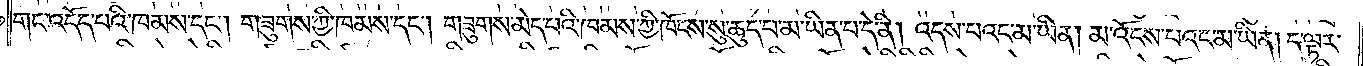གང་འདོད་པའི་ཁམས་དང༌། གཟུགས་ཀྱི་ཁམས་དང༌། གཟུགས་མེད་པའི་ཁམས་ཀྱི་ཁོངས་སུ་ཆུད་པ་མ་ཡིན་པ་དེ་ནི། འདས་པའང་མ་ཡིན། མ་འོངས་པའང་མ་ཡིན། ད་ལྟར་
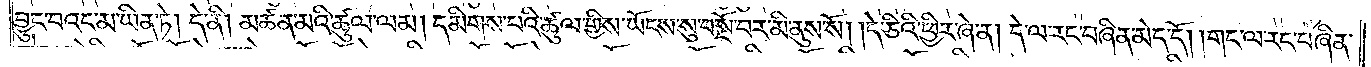བྱུང་བའང་མ་ཡིན་ཏེ། དེ་ནི། མཚན་མའི་ཚུལ་ལམ། དམིགས་པའི་ཚུལ་གྱིས་ཡོངས་སུ་བསྔོ་བར་མི་ནུས་སོ། །དེ་ཅིའི་ཕྱིར་ཞེ་ན། དེ་ལ་རང་བཞིན་མེད་དོ། །གང་ལ་རང་བཞིན་
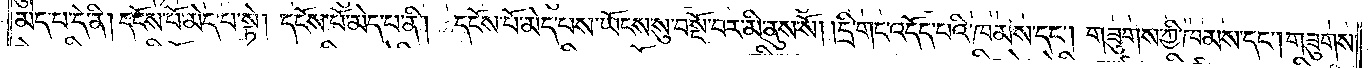མེད་པ་དེ་ནི། དངོས་པོ་མེད་པ་སྟེ། དངོས་པོ་མེད་པ་ནི། དངོས་པོ་མེད་པས་ཡོངས་སུ་བསྔོ་བར་མི་ནུས་སོ། །དྲི་གང་འདོད་པའི་ཁམས་དང༌། གཟུགས་ཀྱི་ཁམས་དང༌། གཟུགས་
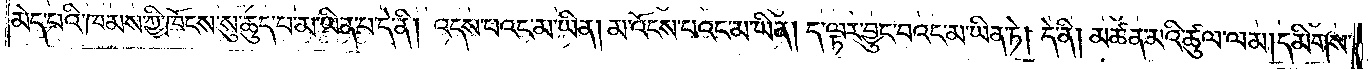མེད་པའི་ཁམས་ཀྱི་ཁོངས་སུ་ཆུད་པ་མ་ཡིན་པ་དེ་ནི། འདས་པའང་མ་ཡིན། མ་འོངས་པའང་མ་ཡིན། ད་ལྟར་བྱུང་བའང་མ་ཡིན་ཏེ། དེ་ནི། མཚན་མའི་ཚུལ་ལམ། དམིགས་
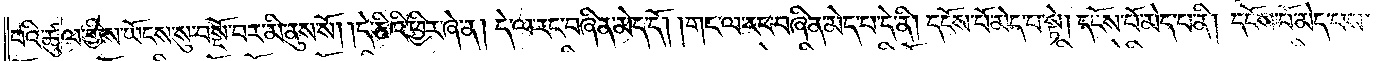པའི་ཚུལ་གྱིས་ཡོངས་སུ་བསྔོ་བར་མི་ནུས་སོ། །དེ་ཅིའི་ཕྱིར་ཞེ་ན། དེ་ལ་རང་བཞིན་མེད་དོ། །གང་ལ་རང་བཞིན་མེད་པ་དེ་ནི། དངོས་པོ་མེད་པ་སྟེ། དངོས་པོ་མེད་པ་ནི། དངོས་པོ་མེད་པས་
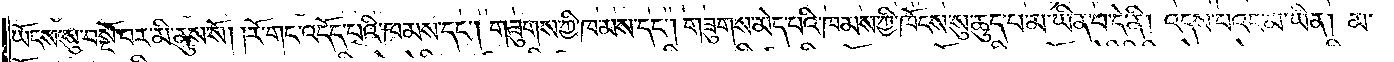ཡོངས་སུ་བསྔོ་བར་མི་ནུས་སོ། །རོ་གང་འདོད་པའི་ཁམས་དང༌། གཟུགས་ཀྱི་ཁམས་དང༌། གཟུགས་མེད་པའི་ཁམས་ཀྱི་ཁོངས་སུ་ཆུད་པ་མ་ཡིན་པ་དེ་ནི། འདས་པའང་མ་ཡིན། མ་
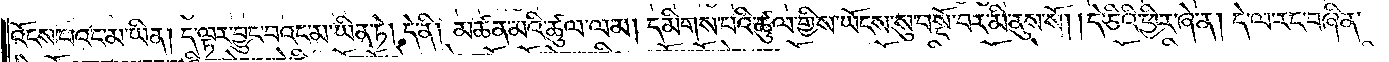འོངས་པའང་མ་ཡིན། ད་ལྟར་བྱུང་བའང་མ་ཡིན་ཏེ། དེ་ནི། མཚན་མའི་ཚུལ་ལམ། དམིགས་པའི་ཚུལ་གྱིས་ཡོངས་སུ་བསྔོ་བར་མི་ནུས་སོ། །དེ་ཅིའི་ཕྱིར་ཞེ་ན། དེ་ལ་རང་བཞིན་
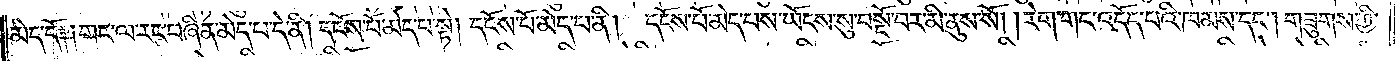མེད་དོ༑ ༑གང་ལ་རང་བཞིན་མེད་པ་དེ་ནི། དངོས་པོ་མེད་པ་སྟེ། དངོས་པོ་མེད་པ་ནི། དངོས་པོ་མེད་པས་ཡོངས་སུ་བསྔོ་བར་མི་ནུས་སོ། །རེག་གང་འདོད་པའི་ཁམས་དང༌། གཟུགས་ཀྱི་
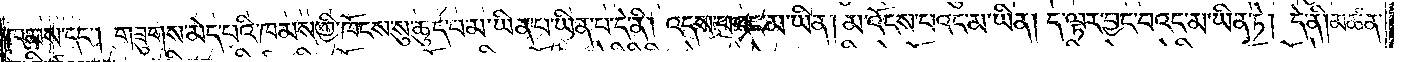ཁམས་དང༌། གཟུགས་མེད་པའི་ཁམས་ཀྱི་ཁོངས་སུ་ཆུད་པ་མ་ཡིན་པ་དེ་ནི། འདས་པའང་མ་ཡིན། མ་འོངས་པའང་མ་ཡིན། ད་ལྟར་བྱུང་བའང་མ་ཡིན་ཏེ། དེ་ནི། མཚན་
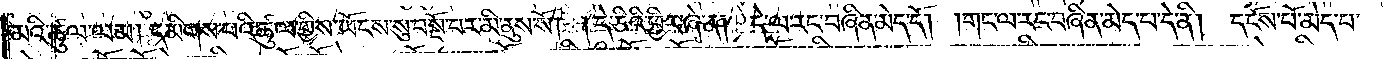མའི་ཚུལ་ལམ། དམིགས་པའི་ཚུལ་གྱིས་ཡོངས་སུ་བསྔོ་བར་མི་ནུས་སོ། །དེ་ཅིའི་ཕྱིར་ཞེ་ན། དེ་ལ་རང་བཞིན་མེད་དོ། །གང་ལ་རང་བཞིན་མེད་པ་དེ་ནི། དངོས་པོ་མེད་པ་
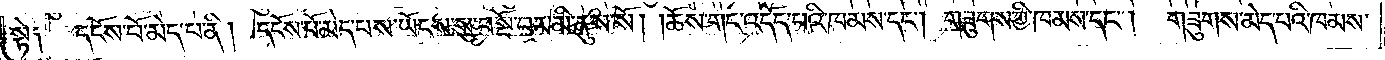སྟེ༑ དངོས་པོ་མེད་པ་ནི། དངོས་པོ་མེད་པས་ཡོངས་སུ་བསྔོ་བར་མི་ནུས་སོ། །ཆོས་གང་འདོད་པའི་ཁམས་དང༌། གཟུགས་ཀྱི་ཁམས་དང༌། གཟུགས་མེད་པའི་ཁམས་
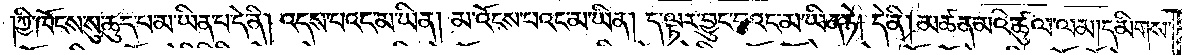ཀྱི་ཁོངས་སུ་ཆུད་པ་མ་ཡིན་པ་དེ་ནི། འདས་པའང་མ་ཡིན། མ་འོངས་པའང་མ་ཡིན། ད་ལྟར་བྱུང་བའང་མ་ཡིན་ཏེ། དེ་ནི། མཚན་མའི་ཚུལ་ལམ། དམིགས་
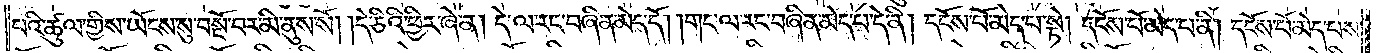པའི་ཚུལ་གྱིས་ཡོངས་སུ་བསྔོ་བར་མི་ནུས་སོ། །དེ་ཅིའི་ཕྱིར་ཞེ་ན། དེ་ལ་རང་བཞིན་མེད་དོ། །གང་ལ་རང་བཞིན་མེད་པ་དེ་ནི། དངོས་པོ་མེད་པ་སྟེ། དངོས་པོ་མེད་པ་ནི། དངོས་པོ་མེད་པས་
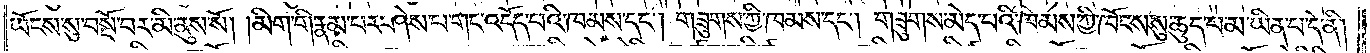ཡོངས་སུ་བསྔོ་བར་མི་ནུས་སོ། །མིག་གི་རྣམ་པར་ཤེས་པ་གང་འདོད་པའི་ཁམས་དང༌། གཟུགས་ཀྱི་ཁམས་དང༌། གཟུགས་མེད་པའི་ཁམས་ཀྱི་ཁོངས་སུ་ཆུད་པ་མ་ཡིན་པ་དེ་ནི།
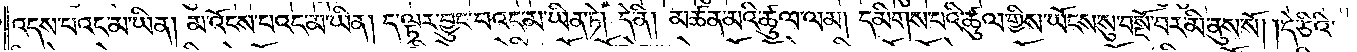འདས་པའང་མ་ཡིན། མ་འོངས་པའང་མ་ཡིན། ད་ལྟར་བྱུང་བའང་མ་ཡིན་ཏེ། དེ་ནི། མཚན་མའི་ཚུལ་ལམ། དམིགས་པའི་ཚུལ་གྱིས་ཡོངས་སུ་བསྔོ་བར་མི་ནུས་སོ། །དེ་ཅིའི་
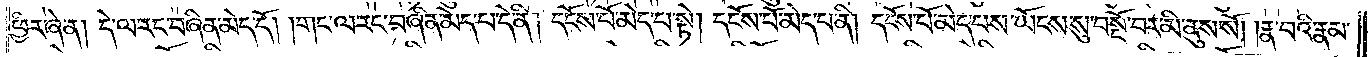ཕྱིར་ཞེ་ན། དེ་ལ་རང་བཞིན་མེད་དོ། །གང་ལ་རང་བཞིན་མེད་པ་དེ་ནི། དངོས་པོ་མེད་པ་སྟེ། དངོས་པོ་མེད་པ་ནི། དངོས་པོ་མེད་པས་ཡོངས་སུ་བསྔོ་བར་མི་ནུས་སོ། །རྣ་བའི་རྣམ་
